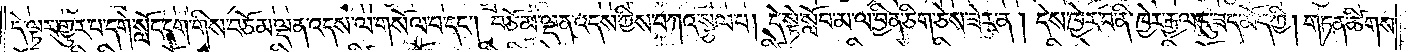དེ་ལྟར་གྱུར་པ་དགེ་སློང་དག་གིས་བཅོམ་ལྡན་འདས་ལ་གསོལ་པ་དང༌། བཅོམ་ལྡན་འདས་ཀྱིས་བཀའ་སྩལ་པ། དེ་སྟེ་སློབ་མ་ལ་བྱིན་ཅིག་ཅེས་ཟེར་ན། དེས་ཁྱེར་བ་ནི་ཁྱེར་རྒྱལ་དུ་ཟད་མོད་ཀྱི། གཏན་ཚིགས་
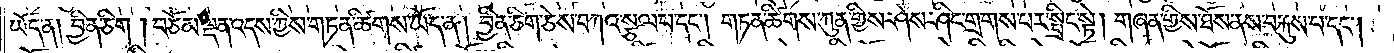ཡོད་ན། བྱིན་ཅིག །བཅོམ་ལྡན་འདས་ཀྱིས་གཏན་ཚིགས་ཡོད་ན། བྱིན་ཅིག་ཅེས་བཀའ་སྩལ་པ་དང༌། གཏན་ཚིགས་ཀུན་གྱིས་ཤེས་ཤིང་གྲགས་པར་སྤྲིང་སྟེ། གཞན་གྱིས་ཐོས་ནས་བརྐུས་པ་དང༌།
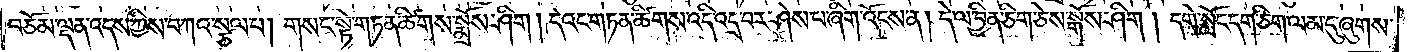བཅོམ་ལྡན་འདས་ཀྱིས་བཀའ་སྩལ་པ། གསང་སྟེ་གཏན་ཚིགས་སྨྲོས་ཤིག །དེའང་གཏན་ཚིགས་འདི་འདྲ་བར་ཤེས་པ་ཞིག་འོངས་ན། དེ་ལ་བྱིན་ཅིག་ཅེས་སྒོས་ཤིག །དགེ་སློང་དག་ཅིག་ལམ་དུ་ཞུགས་
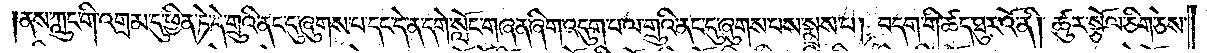ནས་ཀླུང་གི་འགྲམ་དུ་ཕྱིན་ཏེ་དེ་གྲུའི་ནང་དུ་ཞུགས་པ་དང་དེ་ན་དགེ་སློང་གཞན་ཞིག་འདུག་པ་ལ་གྲུའི་ནང་དུ་ཞུགས་པས་སྨྲས་པ། བདག་གི་ཚད་ཐུར་འོ་ནི། ཚུར་སྩོལ་ཅིག་ཅེས་
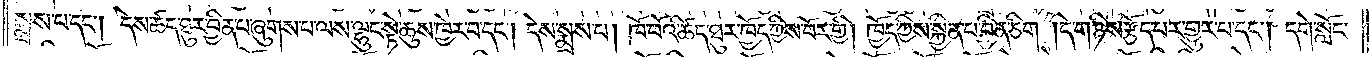སྨྲས་པ་དང༌། དེས་ཚད་ཐུར་བྱིན་པ་ཞུགས་པ་ལས་ལྷུང་སྟེ་ཆུས་ཁྱེར་བ་དང༌། དེས་སྨྲས་པ། ཁོ་བོའི་ཚད་ཐུར་ཁྱོད་ཀྱིས་བོར་གྱི། ཁྱོད་ཀྱིས་སྐྱིན་པ་བྱིན་ཅིག །དེ་གཉིས་རྩོད་པར་གྱུར་པ་དང༌། དགེ་སློང་
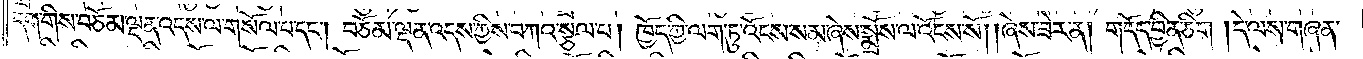དག་གིས་བཅོམ་ལྡན་འདས་ལ་གསོལ་པ་དང༌། བཅོམ་ལྡན་འདས་ཀྱིས་བཀའ་སྩལ་པ། ཁྱོད་ཀྱི་ལག་ཏུ་འོངས་སམ་ཞེས་སྨྲོས་ལ་འོངས་སོ། །ཞེས་ཟེར་ན། གདོད་བྱིན་ཅིག །དེ་ལས་གཞན་
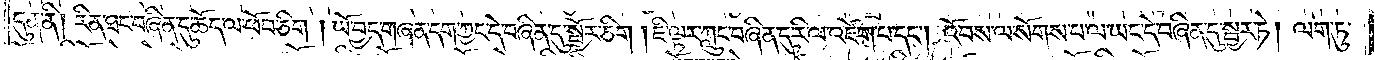དུ་ན་ནི། རིན་ཐང་བཞིན་དུ་ཆོད་ལ་ཕོབ་ཅིག །ཡོ་བྱད་གཞན་དག་ཀྱང་དེ་བཞིན་དུ་སྦྱོར་ཅིག །ཇི་ལྟར་ཀླུང་བཞིན་དུ་རི་ལ་འཛེག་པ་དང༌། འོབས་ལ་སོགས་པ་ལ་ཡང་དེ་བཞིན་དུ་སྦྱར་ཏེ། ལག་ཏུ་
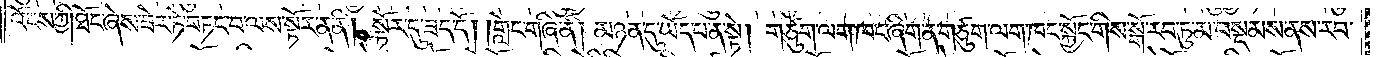འོངས་ཀྱི། ཐོང་ཞེས་ཟེར་ཏེ་བཏང་བ་ལས་སྟོར་ན་ནི། སྟོར་དུ་ཟད་དོ། །གླེང་གཞི་ནི། མཉན་དུ་ཡོད་པ་ན་སྟེ། གཙུག་ལག་ཁང་ཞིག་ན་གཙུག་ལག་ཁང་སྐྱོང་གིས་སྒོ་རབ་ཏུ་མ་བསྡམས་ནས་རབ་
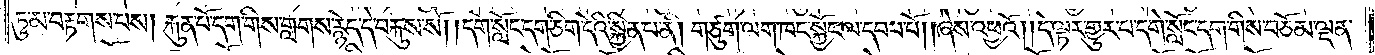ཏུ་མ་བརྟགས་པས། རྐུན་པོ་དག་གིས་གླགས་རྙེད་དེ་བརྐུས་སོ། །དགེ་སློང་དག་ཅིག་དེའི་སྐྱིན་པ་ནི། གཙུག་ལག་ཁང་སྐྱོང་ལ་དབབ་པོ། །ཞེས་འཕྱའོ། །དེ་ལྟར་གྱུར་པ་དགེ་སློང་དག་གིས་བཅོམ་ལྡན་
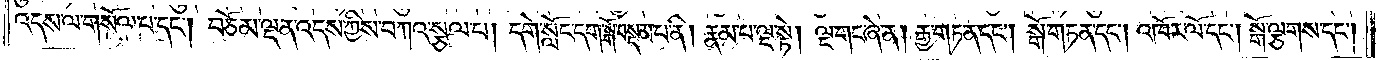འདས་ལ་གསོལ་པ་དང༌། བཅོམ་ལྡན་འདས་ཀྱིས་བཀའ་སྩལ་པ། དགེ་སློང་དག་སྒོ་བསྡམ་པ་ནི། རྣམ་པ་ལྔ་སྟེ། ལྔ་གང་ཞེ་ན། རྒྱ་གཏན་དང༌། སྒོ་གཏན་དང༌། འཁོར་ལོ་དང༌། སྒོ་ལྕགས་དང༌།
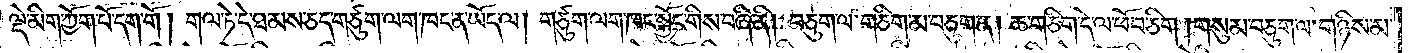ལྡེ་མིག་ཀྱོག་པོ་དག་གོ། གལ་ཏེ་དེ་ཐམས་ཅད་གཙུག་ལག་ཁང་ན་ཡོད་ལ། གཙུག་ལག་ཁང་སྐྱོང་གིས་བཞི་ནི། བཅུག་ལ་གཅིག་མ་བཅུག་ན། ཆ་གཅིག་དེ་ལ་ཕོབ་ཅིག །གསུམ་བཅུག་ལ་གཉིས་མ་
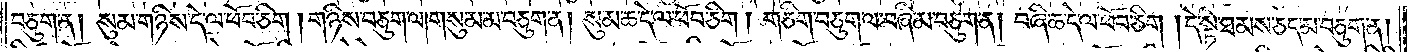བཅུག་ན། སུམ་གཉིས་དེ་ལ་ཕོབ་ཅིག །གཉིས་བཅུག་ལ། གསུམ་མ་བཅུག་ན། སུམ་ཆ་དེ་ལ་ཕོབ་ཅིག། གཅིག་བཅུག་ལ་བཞི་མ་བཅུག་ན། བཞི་ཆ་དེ་ལ་ཕོབ་ཅིག །དེ་སྟེ་ཐམས་ཅད་མ་བཅུག་ན།
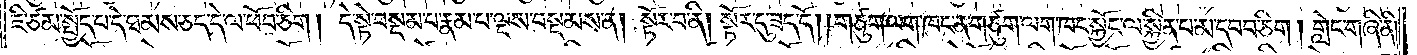ཇི་ཙམ་སྤྱོད་པ་དེ་ཐམས་ཅད་དེ་ལ་ཕོབ་ཅིག། དེ་སྟེ་བསྡམ་པ་རྣམ་པ་ལྔས་བསྡམས་ན། སྟོར་བ་ནི། སྟོར་དུ་ཟད་དོ། །གཙུག་ལག་ཁང་ན་གཙུག་ལག་ཁང་སྐྱོང་ལ་སྐྱིན་པ་མ་དབབ་ཅིག། གླེང་གཞི་ནི།
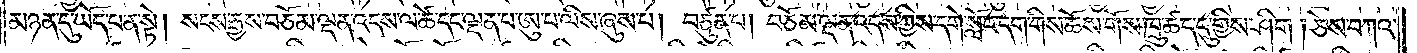མཉན་དུ་ཡོད་པ་ན་སྟེ། སངས་རྒྱས་བཅོམ་ལྡན་འདས་ལ་ཚེ་དང་ལྡན་པ་ཨུ་པ་ལིས་ཞུས་པ། བཙུན་པ། བཅོམ་ལྡན་འདས་ཀྱིས་དགེ་སློང་དག་གིས་ཆོས་གོས་ཁྲུ་ཚད་དུ་གྱིས་ཤིག །ཅེས་བཀའ་
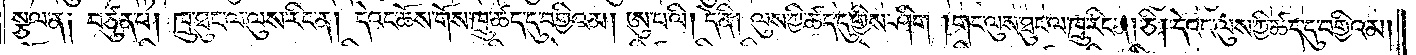སྩལ་ན། བཙུན་པ། ཁྲུ་ཐུང་ལ་ལུས་རིང་ན། དེའང་ཆོས་གོས་ཁྲུ་ཚད་དུ་བགྱིའམ། ཨུ་པ་ལི། དེ་ནི། ལུས་ཀྱི་ཚད་དུ་གྱིས་ཤིག །གང་ལུས་ཐུང་ལ་ཁྲུ་རིང་ན། ཅི། དེའང་ལུས་ཀྱི་ཚད་དུ་བགྱིའམ།
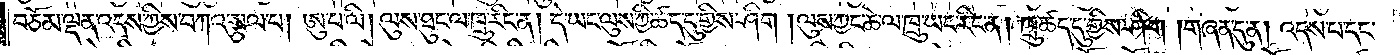བཅོམ་ལྡན་འདས་ཀྱིས་བཀའ་སྩལ་པ། ཨུ་པ་ལི། ལུས་ཐུང་ལ་ཁྲུ་རིང་ན། དེ་ཡང་ལུས་ཀྱི་ཚད་དུ་གྱིས་ཤིག །ལུས་ཀྱང་ཆེ་ལ་ཁྲུ་ཡང་རིང་ན། ཁྲུ་ཚད་དུ་གྱིས་ཤིག །གཞན་དུ་ན། འདས་པ་དང་
